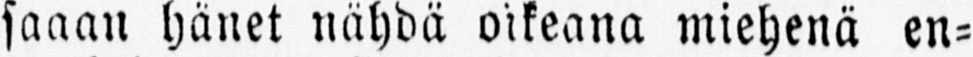saaan hänet nähdä oikeana miehenä en-
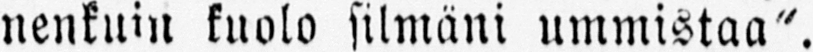nenkuin kuolo silmäni ummistaa".
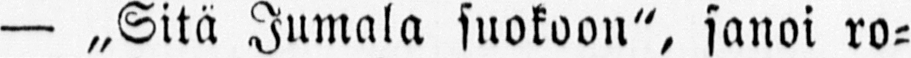— „Sitä Jumala suokoon", sanoi ro-
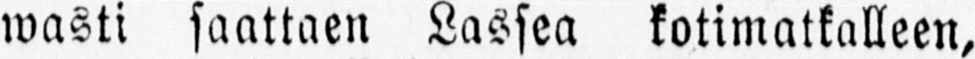wasti saattaen Lassea kotimatkalleen,
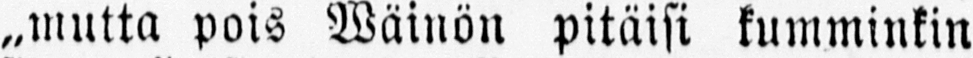„mutta pois Wäinön pitäisi kumminkin
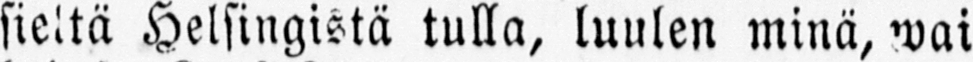sieltä Helsingistä tulla, luulen minä, wai
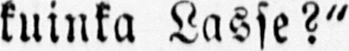kuinka Lasse?"
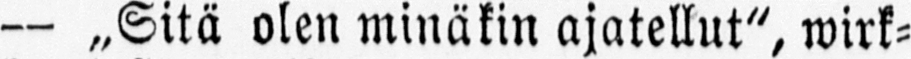— „Sitä olen minäkin ajatellut", wirk-
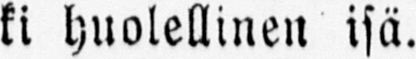ki huolellinen isä.
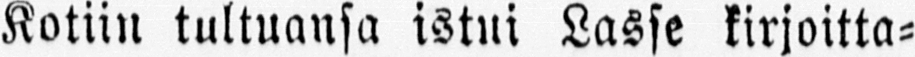Kotiin tultuansa istui Lasse kirjoitta-
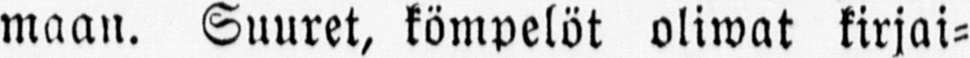maan. Suuret, kömpelöt oliwat kirjai-
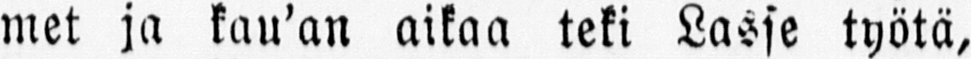met ja kau'an aikaa teki Lasse työtä,
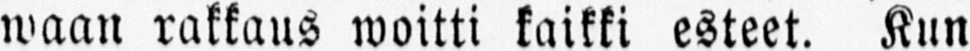waan rakkaus woitti kaikki esteet. Kun
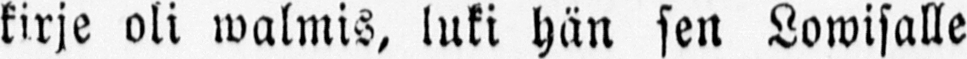kirje oli walmis, luki hän sen Lowisalle
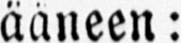ääneen:
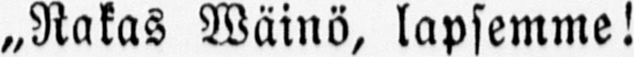„Rakas Wäinö, lapsemme!
